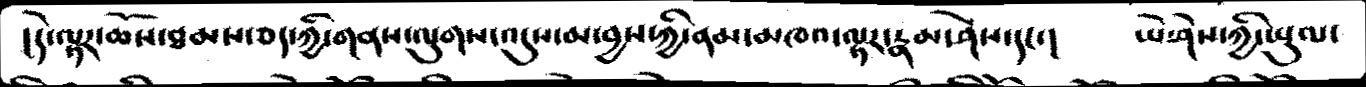།དེ་ལྟར་ཆོས་ཐམས་ཅད་ཀྱི་གནས་ལུགས་འདུས་མ་བྱས་ཀྱི་ནམ་མཁའ་ལྟར་རྣམ་ཤེས་དང་།    ཡེ་ཤེས་ཀྱི་ཡུལ་
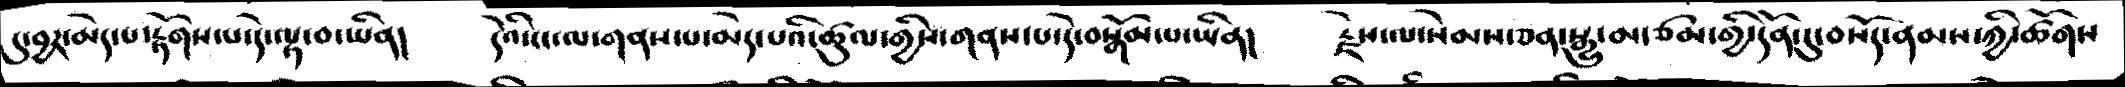དུ་བྱར་མེད་པ་རྟོགས་པ་དེ་ལྟ་བ་ཡིན།   དེའི་ངང་ལ་གནས་པ་མེད་པའི་ཚུལ་གྱིས་གནས་པ་དེ་བསྒོམ་པ་ཡིན།   རྗེས་ལ་སེམས་ཅན་སྒྱུ་མ་ཙམ་གྱི་དོན་དུ་བསོད་ནམས་ཀྱི་ཚོགས
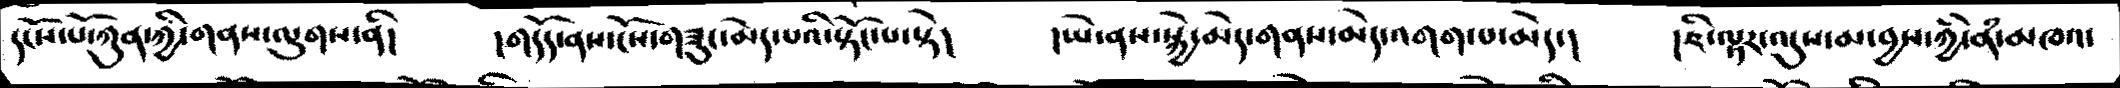དངོས་པོ་ཀུན་ཀྱི་གནས་ལུགས་ནི།   །གདོད་ནས་ངེས་གཟུང་མེད་པའི་སྟོང་པ་སྟེ།   །ཡེ་ནས་སྐྱེ་མེད་གནས་མེད་འགག་པ་མེད་།    །ཇི་ལྟར་འདུས་མ་བྱས་ཀྱི་ནཾ་མཁའ་
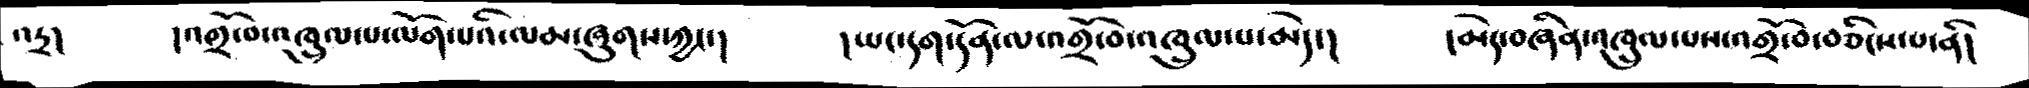འདྲ།    །འགྲོ་བ་འཁྲུལ་པ་ལོག་པའི་ལམ་ཞུགས་ཀྱང་།    །ཡང་དག་དོན་ལ་འགྲོ་བ་འཁྲུལ་པ་མེད་།    །མེད་བཞིན་འཁྲུལ་པས་འགྲོ་བ་བཅིངས་པ་ནི།
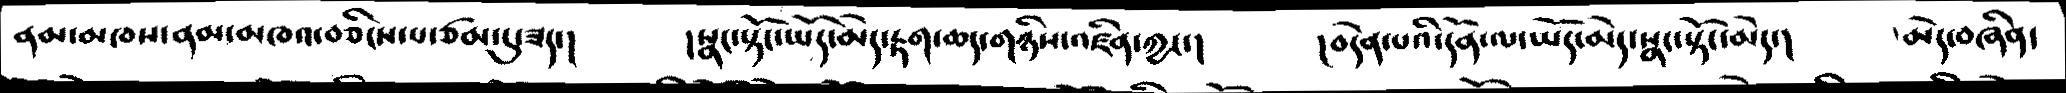ནམ་མཁས་ནམ་མཁའ་བཅིངས་པ་ཙམ་དུ་ཟད་།   །སྣང་སྟོང་ཡོད་མེད་རྟག་ཆད་གཉིས་འཛིན་ཀྱང་།   །བདེན་པའི་དོན་ལ་ཡོད་མེད་སྣང་སྟོང་མེད་།   མེད་བཞིན་
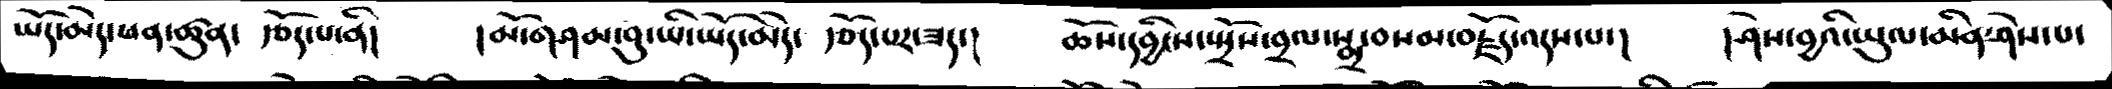ཡོད་མེད་ཕན་ཚུན་ རྩོད་པ་ནི།   །མོ་གཤམ་བུ་ཡི་ཡོད་མེད་ རྩོད་པར་ཟད་།   ཆོས་དབྱིངས་སྤྲོས་བྲལ་སྨྲ་བསམ་བརྗོད་འདས་པ་།   །ཤེས་བྱའི་ཡུལ་མིན་ཤེས་པ་
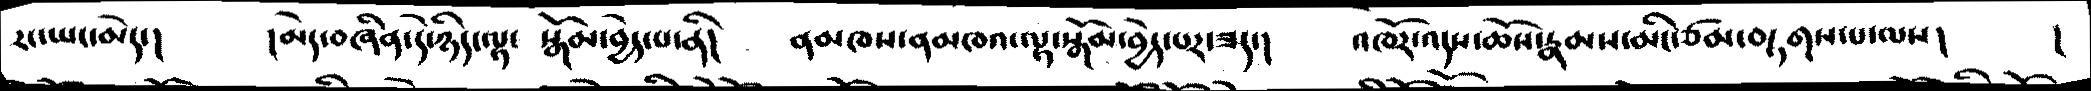རང་ཡང་མེད་།   །མེད་བཞིན་དེ་ཉིད་ལྟ་ སྒོམ་བྱེད་པནི།   ནམཁས་ནམཁའ་ལྟ་སྒོམ་བྱེད་པར་ཟད་།   འཁོར་འདས་ཆོས་རྣམས་མིང་ཙམ་བཏགས་པ་ལས།   །
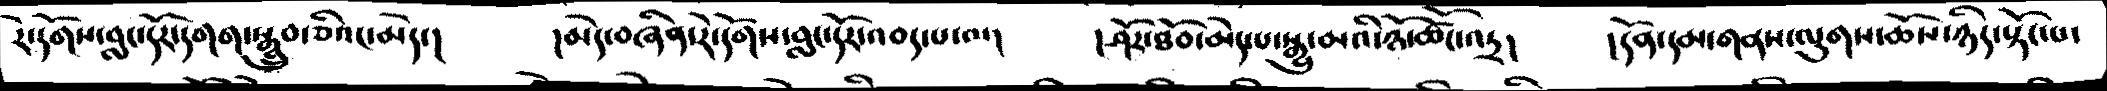རེ་དོགས་བླང་དོར་དགག་སྒྲུབ་ཅིའང་མེད་།   །མེད་བཞིན་རེ་དོགས་བླང་དོར་འབད་པ་ལ།   །ཤོར་ཐོབ་མེད་པ་སྒྱུ་མའི་ཉོ་ཚོང་འདྲ།    །དོན་དམ་གནས་ལུགས་ཆོས་ཉིད་སྟོང་པ་
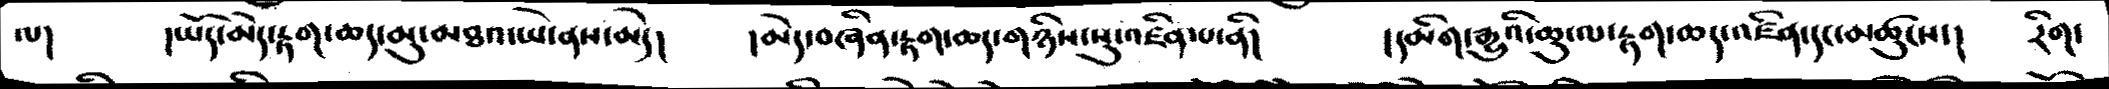ལ།   །ཡོད་མེད་རྟག་ཆད་མུ་མཐའ་ཡེ་ནས་མེད།   །མེད་བཞིན་རྟག་ཆད་གཉིས་སུ་འཛིན་པ་ནི།   །དམིག་རྒྱུའི་ཆུ་ལ་རྟག་ཆད་འཛིན་དང་མཚུངས་།   རིག་
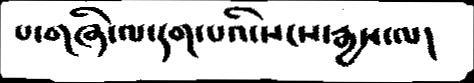པ་གཞི་ལ་དག་པའི་སངས་རྒྱས་ལ།
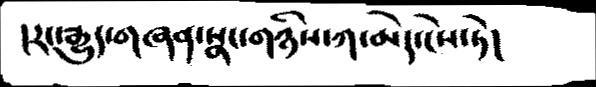།རང་རྒྱུད་གཞན་སྣང་གཉིས་ཀ་མེད་ངེས་ཏེ།
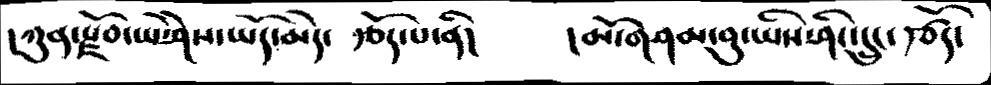།ཀུན་རྫོབ་ཡེ་ཤེས་ཡོད་མེད་ རྩོད་པ་ནི།    །མོ་གཤམ་བུ་ཡིས་ཤིང་དྲུང་རྩོད་
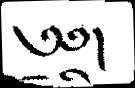༄༅།
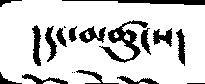།དང་མཚུངས།
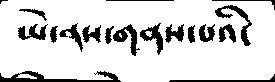ཡེ་ནས་གནས་པའི་
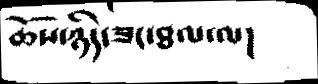ཆོས་ཉིད་ཟང་ཐལ་ལ།
